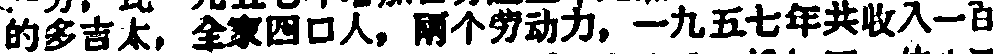的多吉太，全家四口人，兩个劳动力，一九五七年共收入一百
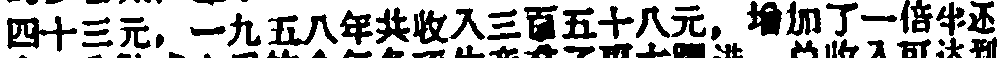四十三元，一九五八年共收入三百五十八元，增加了一倍半还
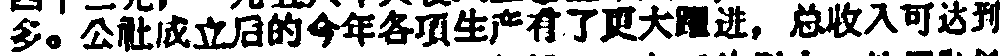多。公社成立后的今年各項生产有了更大躍进，总收入可达到
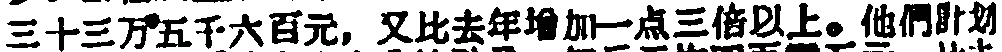三十三万五千六百元，又比去年增加一点三倍以上。他們計划
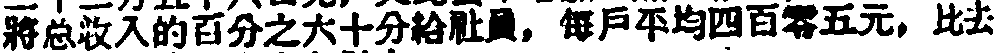將总牧入的百分之六十分給社員，每戶平均四百零五元，比去
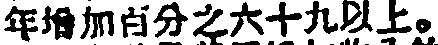年增加百分之六十九以上。
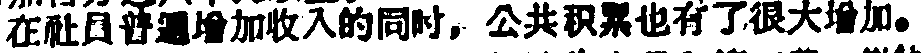在社員普遍增加收入的同时，公共积累也有了很大增加。
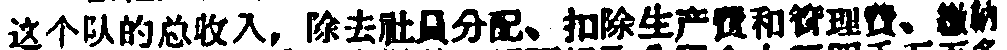这个队的总收入，除去社員分配、扣除生产费和管理费、繳納
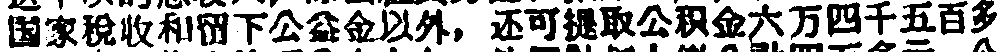国家稅收和留下公益金以外，还可提取公积金六万四千五百多
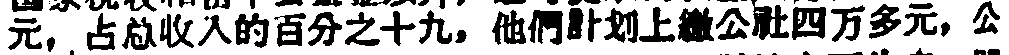元，占总收入的百分之十九，他們計划上繳公社四万多元，公
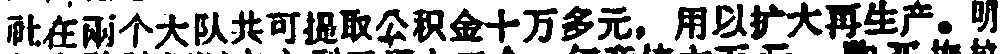社在兩个大队共可提取公积金十万多元，用以扩大再生产。明
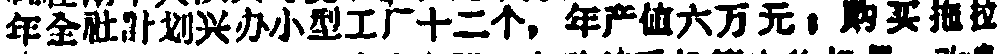年全社計划兴办小型工厂十二个，年产值六万元；购买拖拉
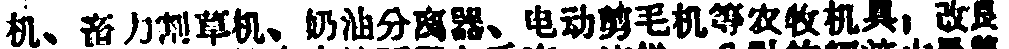机、畜力割草机、奶油分离器、电动剪毛机等农牧机具；改良
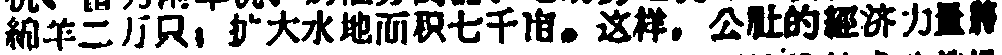綿羊二万只，扩大水地面积七千亩。这样，公社的經济力量将
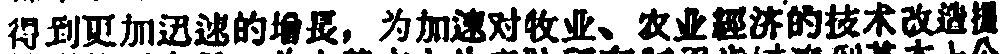得到更加迅速的增長，为加速对牧业、农业經济的技术改造提
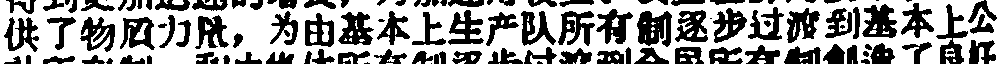供了物貭力量，为由基本上生产队所有制逐步过渡到基本上公
